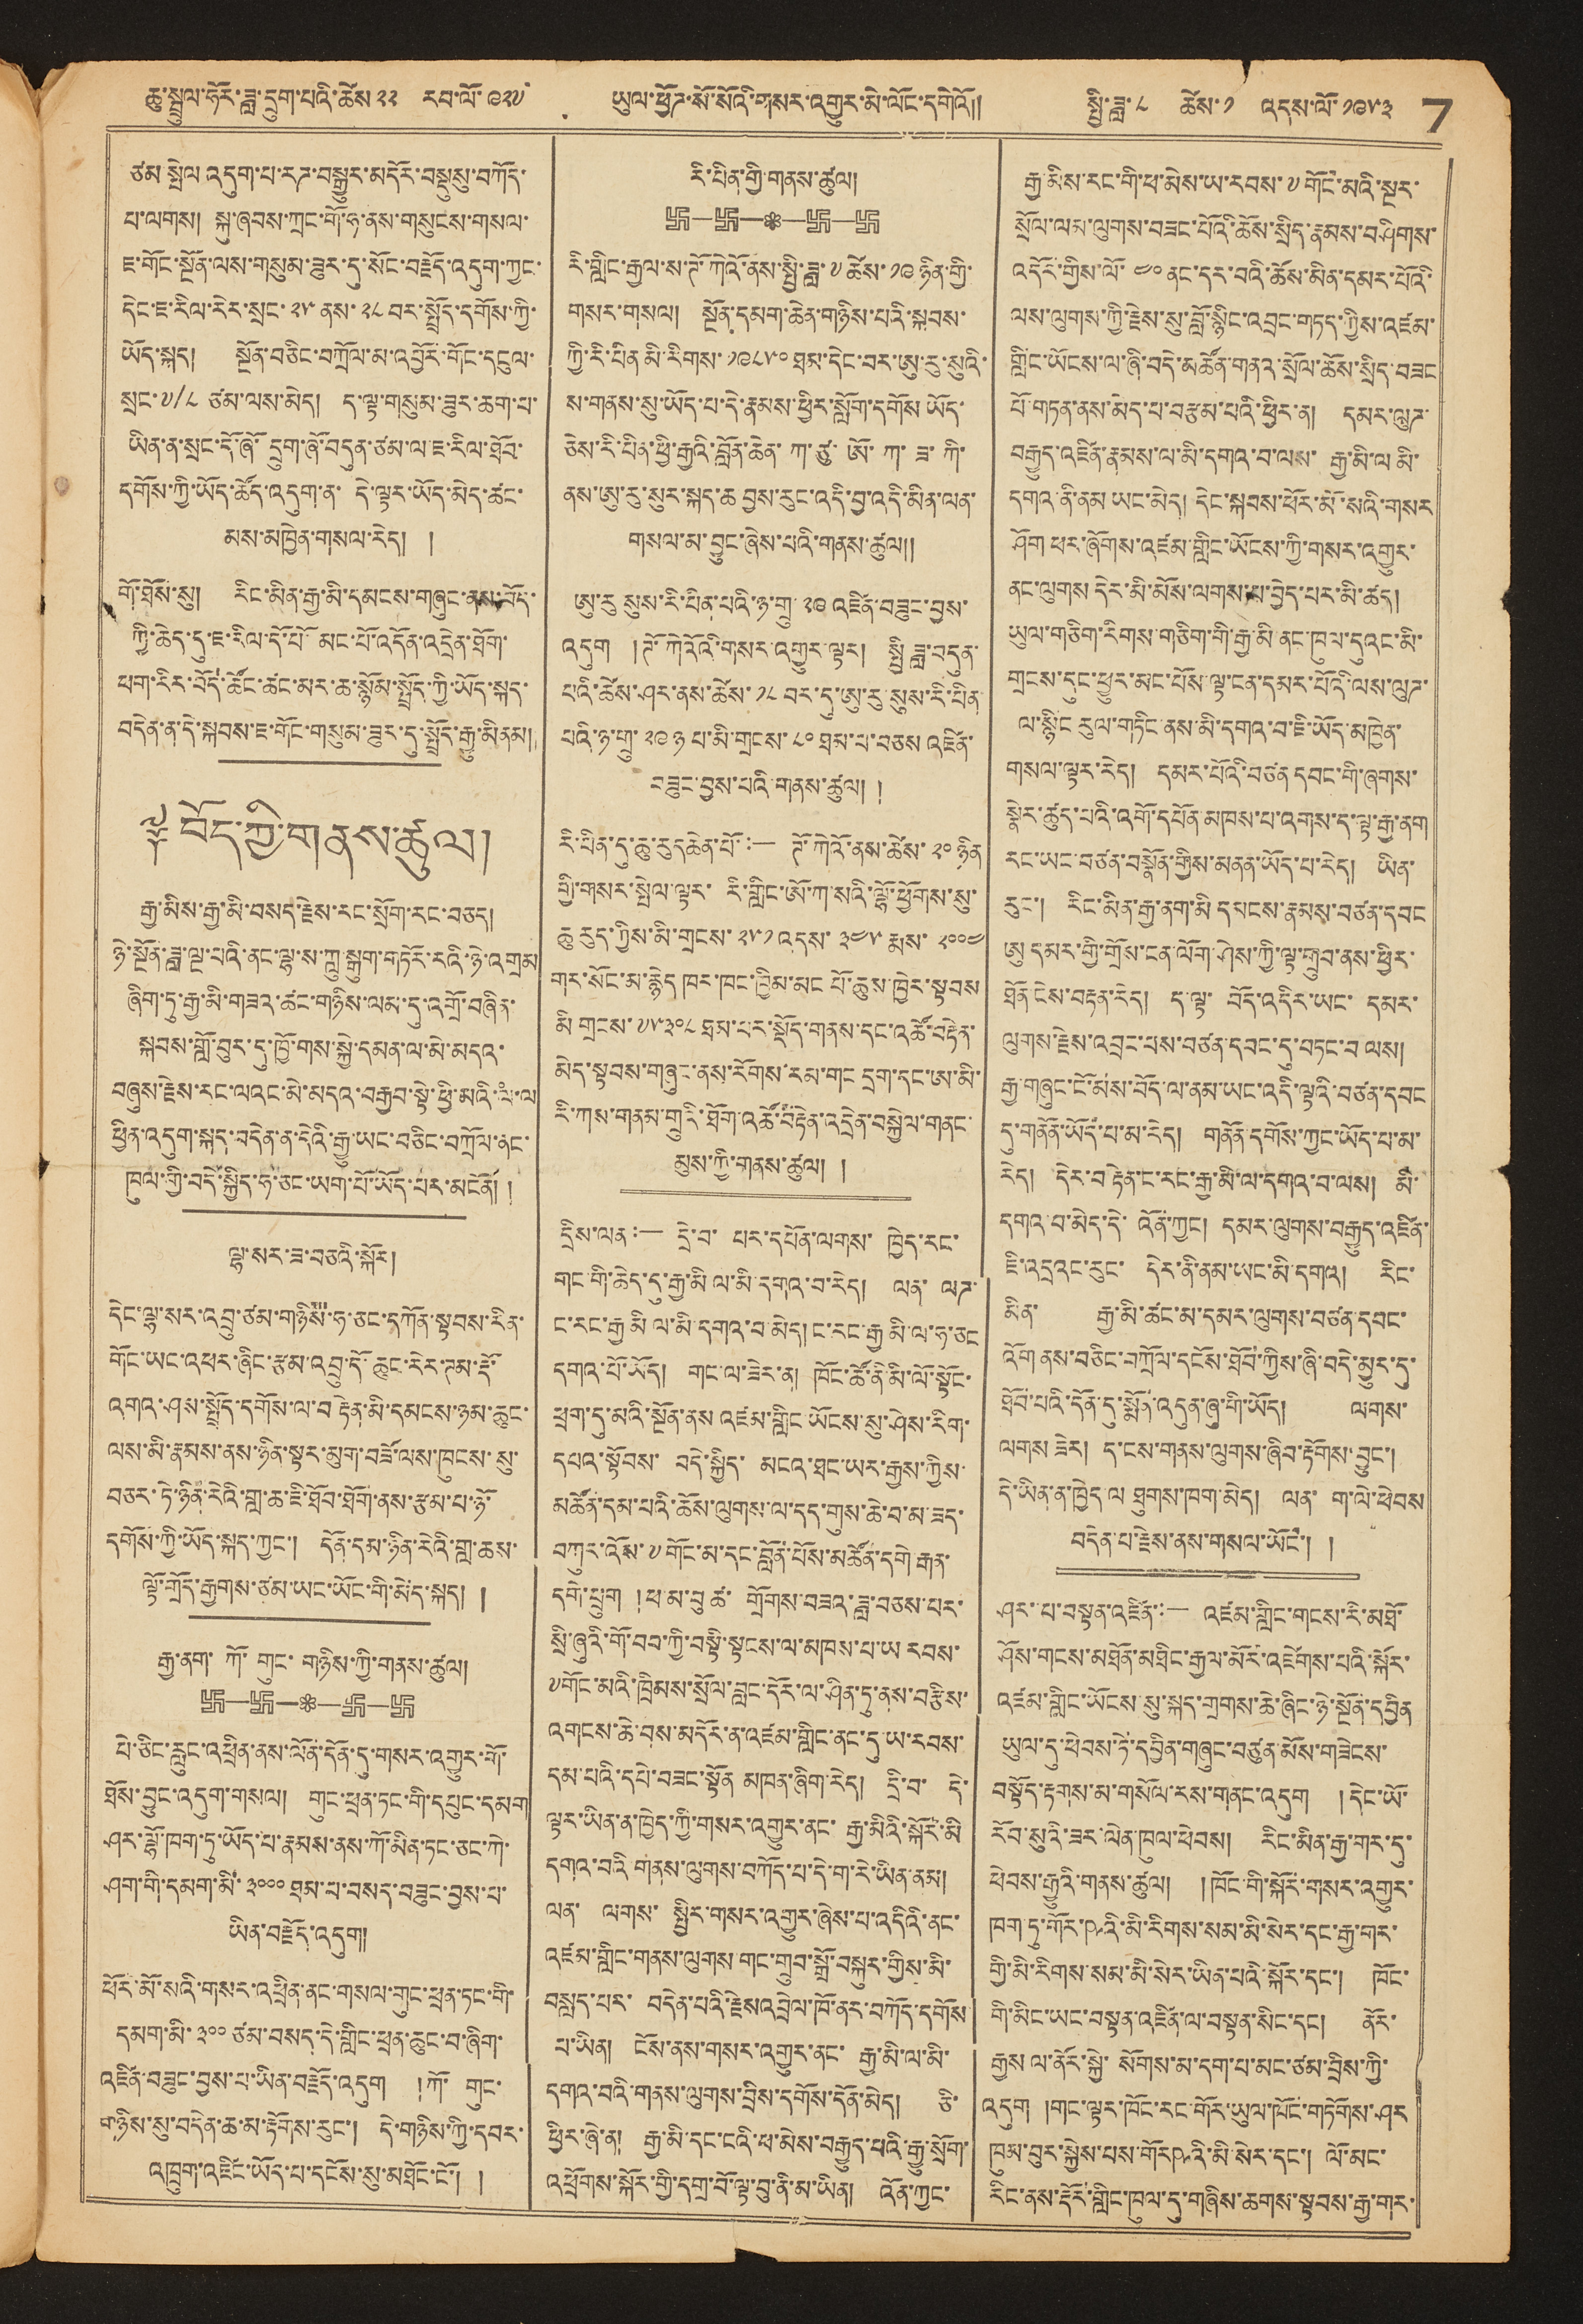ཆུ་སྤྲུལ་ཧོར་ཟླ་དྲུག་པའི་ཚེས་༢༢ རབ་ལོ་༩༢༦ ཡུལ་ཕྱོགས་སོ་སོའི་གསར་འགྱུར་མེ་ལོང་དགེའོ།། སྤྱི་ཟླ་ ༨ ཚེས་ ༡ འདས་ལོ་༡༩༥༣ 7
ཙམ སྤེལ འདུག་པ་རཌ་བསྒྱུར་མདོར་བསྡུསུ་བཀོད་
པ་ལགས། སྐུ་ཞབས་ཀྲང་གོ་ཧ་ནས་གསུངས་གསལ་
ཇ་གོང་སྔོན་ལས་གསུམ་ཟུར་དུ་སོང་བརྗོད་འདུག་ཀྱང་
དེང་ཇ་རིལ་རེར་སྲང་ ༢༥ ནས་ ༢༨ བར་སྤྲོད་དགོས་ཀྱི་
ཡོད་སྐད། སྔོན་བཅིང་བཀྲོལ་མ་འབྱོར་གོང་དངུལ་
སྲང་ ༧/༨ ཙམ་ལས་མེད། ད་ལྟ་གསུམ་ཟུར་ཆག་པ་
ཡིན་ན་སྲང་དོ་ཞོ་དྲུག་ཞོ་བདུན་ཙམ་ལ་ཇ་རིལ་ཐོབ་
དགོས་ཀྱི་ཡོད་ཚོད་འདུག་ན་དེ་ལྟར་ཡོད་མེད་ཚང་
མས་མཁྱེན་གསལ་རེད། །
གོ་ཐོས་སུ། རིང་མིན་རྒྱ་མི་དམངས་གཞུང་ནས་བོད་
ཀྱི་ཆེད་དུ་ཇ་རིལ་དོ་པོ་མང་པོ་འདོན་འདྲེན་ཐོག་
ཕག་རིར་བོད་ཚོང་ཚང་མར་ཆ་སྙོམ་སྤྲོད་ཀྱི་ཡོད་སྐད་
བདེན་ན་དེ་སྐབས་ཇ་གོང་གསུམ་ཟུར་དུ་སྤྲོད་རྒྱུ་མིནམ།།
༈ བོད་ཀྱི་གནས་ཚུལ།
རྒྱ་མིས་རྒྱ་མི་བསད་རྗེས་རང་སྲོག་རང་བཅད་
ཉེ་སྔོན་ཟླ་ལྔ་པའི་ནང་ལྷ་ས་ཀླུ་སྒྲུབ་གཏོར་རའི་ཉེ་འགྲམ
ཞིག་ཏུ་རྒྱ་མི་གཟའ་ཚང་གཉིས་ལམ་དུ་འགྲོ་བཞིན་
སྐབས་གློ་བུར་དུ་ཁྱོ་གས་སྐྱེ་དམན་ལ་མེ་མདའ་
བཞུས་རྗེས་རང་ལའང་མེ་མདའ་བརྒྱབ་སྟེ་ཕྱི་མའི་ལཾ་ལ་
ཕྱིན་འདུག་སྐད་བདེན་ན་དེའི་རྒྱུ་ཡང་བཅིང་བཀྲོལ་ནང་
ཁུལ་གྱི་བདེ་སྐྱིད་ཧ་ཅང་ཡག་པོ་ཡོད་པར་མངོན།།
ལྷ་སར་ཟ་བཅའི་སྐོར།
དེང་ལྷ་སར་འབྲུ་ཙམ་གཉིས་ཧ་ཅང་དཀོན་སྟབས་རིན་
གོང་ཡང་འཕར་ཞིང་རྩམ་འབྲུ་དོ་ཆུང་རེར་ཌམ་རྡོ་
འགའ་ཤས་སྤྲོད་དགོས་ལ་བརྟེན་མི་དམངས་ཉམ་ཆུང་
ལས་མི་རྣམས་ནས་ཉིན་ལྟར་མུག་བཟོ་ལས་ཁུངས་སུ་
བཅར་ཏེ་ཉིན་རེའི་གླ་ཆ་ཇི་ཐོབ་ཐག་ནས་རྩམ་པ་ཉོ་
དགོས་ཀྱི་ཡོད་སྐད་ཀྱང་། དོན་དམ་ཉིན་རེའི་གླ་ཆས་
ལྟོ་གྲོད་རྒྱགས་ཙམ་ཡང་ཡོང་གི་མེད་སྐད།།
རྒྱ་ནག་ཀོ་གུང་གཉིས་ཀྱི་གནས་ཚུལ།
པེ་ཅིང་རླུང་འཕྲིན་ནས་ལོན་དོན་དུ་གསར་འགྱུར་གོ་
ཐོས་བྱུང་འདུག་གསལ། །གུང་ཕྲན་ཏང་གི་དཔུང་དམག
ཤར་ལྷོ་ཁག་ཏུ་ཡོད་པ་རྣམས་ནས་ཀོ་མིན་ཏང་ཅང་ཀེ་
ཤག་གི་དམག་མི་ ༣༠༠༠ ཐམ་པ་བསད་བཅུང་བྱས་པ་
ཡིན་བརྗོད་འདུག།།
ཕོར་མོ་སའི་གསར་འཕྲིན་ནང་གསལ་གུང་ཕྲན་ཏང་གི་
དམག་མི་ ༣༠༠ ཙམ་བསད་དེ་གླིང་ཕྲན་ཆུང་བ་ཞིག་
འཛིན་བཟུང་བྱས་པ་ཡིན་བརྗོད་འདུག །ཀོ་གུང་
གཉིས་སུ་བདེན་ཆ་མ་རྟོགས་རུང་། དེ་གཉིས་ཀྱི་དབར་
འཁྲུག་འཛིན་ཡོད་པ་དངོས་སུ་མཐོང་། །
རི་པིན་གྱི་གནས་ཚུལ།
རི་གླིང་རྒྱལ་ས་ཌོ་ཀེའོ་ནས་སྤྱི་ཟླ་༧ཚེས་༡༩ཉིན་གྱི་
གསར་གསལ། སྔོན་དམག་ཆེན་གཉིས་པའི་སྐབས་
ཀྱི་རི་པིན་མི་རིགས་ ༡༩༨༥༠ ཐམ་དེང་བར་ཨུ་རུ་སུའི་
ས་གནས་སུ་ཡོད་པ་དེ་རྣམས་ཕྱིར་སློག་དགོས་ཡོད་
ཅེས་རི་པིན་ཕྱི་རྒྱའི་བློན་ཆེན་ཀ་ཙུ་ཨོ་ཀ་ཟ་ཀི་
ནས་ཨུ་རུ་སུར་སྐད་ཆ བྱས་རུང་འདི་བྱ་འདི་མིན་ལན་
གསལ་མ་བྱུང་ཞེས་པའི་གནས་ཚུལ།།
ཨུ་རུ སུས་རི་པིན་པའི་ཉ་གྲུ་ ༢༩ འཛིན་བཟུང་བྱས་
འདུག །ཊོ་ཀེའོའི་གསར་འགྱུར་ལྟར། སྤྱི ཟླ་བདུན་
པའི་ཚེས་ཤར་ནས་ཚེས་ ༡༨ བར་དུ་ཨུ་རུ་སུས་རི་པིན་
པའི་ཉ་གྲུ་ ༢༩ ཉ པ་མི་གྲངས་ ༨༠ ཐམ་པ་བཅས་འཛིན་
བཟུང་བྱས་པའི་གནས་ཚུལ།།
རི་པིན་དུ་ཆུ་རུད ཆེན་པོ་:— ཌོ་ཀེའོ་ནས་ཚེས་ ༢༠ ཉིན
གྱི་གསར་སྤེལ་ལྟར་རི་གླིང་ཨོ་ཀ་སའི་ལྷོ་ཕྱོགས་སུ་
ཆུ རུད་ཀྱིས་མི་གྲངས་ ༢༨༡ འདས་ ༣༤༥ རྨས་ ༢༠༠༤
གར་སོང་མ་རྙེད་ཁར་ཁང་ཁྱིམ་མང པོ་ཆུས་ཁྱེར་སྟབས
མི གྲངས་༧༥༣༠༨ ཐམ་པར་སྡོད་གནས་དང་འཚོ་བརྟེན་
མེད་སྟབས་གཞུང་ནས་རོགས་རམ་གང དྲག་དང་ཨ་མི་
རི་ཀས་གནམ་གྲུའི་ཐོག་འཚོ་བརྟེན་འདྲེན་བསྐྱེལ་གནང་
མུས་ཀྱི་གནས་ཚུལ།།
དྲིས་ལན:— དྲི་བ་པར་དཔོན་ལགས་ཁྱེད་རང་
གང་གི་ཆེད་དུ་རྒྱ་མི ལ་མི་དགའ་བ་རེད། ལན་ལཌ་
ང་རང་རྒྱ མི ལ་མི་དགའ་བ་མེད། ང་རང་རྒྱ མི་ལ་ཧ་ཅང
དགའ་པོ་ཡོད། གང་ལ་ཟེར་ན། ཁོང་ཚོ་ནི་མི་ལོ་སྟོང་
ཕྲག་དུ་མའི་སྔོན་ནས འཛམ་གླིང ཡོངས་སུ་ཤེས་རིག་
དཔའ་སྟོབས་བདེ་སྐྱིད་མངའ་ཐང་ཡར་རྒྱས་ཀྱིས་
མཚོན་དམ་པའི་ཆོས་ལུགས་ལ་དད་གུས་ཆེ་བ་མ་ཟད་
བཀུར་འོས་༸གོང་མ་དང་བློན་པོས་མཚོན་དགེ་རྒན་
དགེ་ཕྲུག །ཕ་མ་བུ་ཚ་གྲོགས་བཟའ་ཟླ་བཅས་པར་
སྲི་ཞུའི་གོ་བབ་ཀྱི་བསྟི་སྟངས་ལ་མཁས་པ་ཡ རབས་
༸གོང་མའི་ཁྲིམས་སྲོལ་བླང་དོར་ལ་ཤིན་ཏུ་ནས་བརྩིས་
འགངས་ཆེ་བས་མདོར་ན་འཛམ་གླིང་ནང་དུ་ཡ་རབས་
དམ་པའི་དཔེ་བཟང་སྟོན མཁན་ཞིག་རེད། དྲི་བ་དེ་
ལྟར་ཡིན་ན་ཁྱེད་ཀྱི་གསར་འགྱུར་ནང་རྒྱ་མིའི་སྐོར་མི
དགའ་བའི གནས་ལུགས་བཀོད་པ་དེ་ག་རེ་ཡིན་ནམ།
ལན་ལགས་སྤྱིར་གསར་འགྱུར་ཞེས་པ་འདིའི་ནང་
འཛམ་གླིང་གནས་ལུགས གང་གྲུབ་སྒྲོ་བསྐུར་གྱིས་མི་
བསླད་པར་བདེན་པའི་རྗེས་འབྲེལ་ཁོ་ནར་བཀོད་དགོས
པ་ཡིན། །ངོས་ནས་གསར་འགྱུར་ནང་རྒྱ་མི་ལ་མི་
དགའ་བའི་གནས་ལུགས་བྲིས་དགོས་དོན་མེད། ཅི་
ཕྱིར་ཞེ་ན། རྒྱ་མི་དང་ངའི་ཕ་མེས་བརྒྱུད་པའི་རྒྱུ་སྲོག་
འཕྲོགས་སྐོར་གྱི་དགྲ་བོ་ལྟ་བུ་ནི་མ་ཡིན། འོན་ཀྱང་
རྒྱ་མིས་རང་གི་ཕ་མེས་ཡ་རབས་༸གོང་མའི་སྔར་
སྲོལ་ལམ་ལུགས་བཟང་པོའི་ཆོས་སྲིད་རྣམས་བཤིགས་
འདོར་གྱིས་ལོ་ ༤༠ ནང་དར་བའི་ཆོས་མིན་དམར་པོའི་
ལས་ལུགས་ཀྱི་རྗེས་སུ་བློ་སྙིང་འབྲང་གཏད་ཀྱིས་འཛམ་
གླིང་ཡོངས་ལ་ཞི་བདེ་མཚོན་གནའ་སྲོལ་ཆོས་སྲིད་བཟང
པོ་གཏན་ནས་མེད་པ་བརྩམ་པའི་ཕྱིར་ན། དམར་ལུཌ་
བརྒྱུད་འཛིན་རྣམས་ལ་མི་དགའ་བ་ལས་རྒྱ་མི་ལ མི་
དགའ་ནི་ནམ་ཡང་མེད། དེང་སྐབས་ཕོར་མོའི་གསར་
ཤོག་ཕར་ཞོགས་འཛམ་གླིང་ཡོངས་ཀྱི་གསར་འགྱུར་
ནང་ལུགས དེར་མི་མོས་ལགས་པ་བྱེད་པར་མི་ཚད།
ཡུལ་གཅིག་རིགས་གཅིག་གི་རྒྱ་མི ནང་ཁུལ་དུའང་མི་
གྲངས་དུང་ཕྱུར་མང་པོས་ལྟ་ངན་དམར་པོའི་ལས་ལུཌ་
ལ་སྙིང རུལ་གཏིང་ནས་མི་དགའ་བ་ཇི་ཡོད་མཁྱེན་
གསལ་ལྟར་རེད། དམར་པོའི་བཙན་དབང་གི་ཞགས་
སྣིར་ཚུད་པའི་འགོ་དཔོན་མཁས་པ་འགས་ད་ལྟ་རྒྱ་ནག
རང་ཡང་བཙན་བསྣོན་གྱིས་མནན་ཡོད་པ་རེད། ཡིན་
རུང་། རིང་མིན་རྒྱ་ནག་མི དམངས་རྣམས་བཙན་དབང
ཨུ དམར་གྱོ་གྲོས་ངན་ལོག་ཤེས་ཀྱི་ལྟ་གྲུབ་ནས་ཕྱིར་
ཐོན་ངེས་བརྟན་རེད། དེ་ལྟ་བོད་འདིར་ཡང་དམར་
ལུགས་རྗེས་འབྲང་པས་བཙན་དབང་དུ་བཏང་བ ལས།
རྒྱ་གཞུང་ངོ་མས་བོད་ལ་ནམ་ཡང་འདི་ལྟའི་བཙན་དབང
དུ་གནོན་ཡོད་པ་མ་རེད། གནོན་དགོས་ཀྱང་ཡོད་པ་མ་
རེད། དེར་བརྟེན་ང་རང་རྒྱ་མི་ལ་དགའ་བ་ལས། མི་
དགའ་བ་མེད་དེ་འོན་ཀྱང། དམར་ལུགས་བརྒྱུད་འཛིན་
ཇི་འདྲའང་རུང་དེར་ནི་ནམ་ཡང་མེད་དགའ། རིང་
མིན་རྱ་མི་ཚང་མ་དམར་ལུགས་བཙན་དབང་
འོག ནས་བཅིང་བཀྲོལ་དངོས་ཐོབ་ཀྱིས་ཞི་བདེ་མྱུར་དུ་
ཐོབ་པའི་དོན་དུ་སྨོན་འདུན་ཞུ་གི་ཡོད། ལགས་
ལགས ཟེར། ད་ངས་གནས་ལུགས་ཞིབ་རྟོགས་བྱུང་།
དེ་ཡིན་ན་ཁྱེད ལ ཐུགས་ཁག་མེད། ལན་ག་ལེ་ཕེབས
བདེན་པ་རྗེས་ནས་གསལ་ཡོང་།།
ཤར་པ་བསྟན་འཛིན་:— འཛམ་གླིང་གངསརི་མཐོ་
ཤོས་གངས་མཐོན་མཐིང་རྒྱལ་མོར་འཛེགས་པའི་སྐོར་
འཛམ་གླིང་ཡོངས་སུ་སྐད་གྲགས་ཆེ་ཞིང་ཉེ་སྔོན་དབྱིན
ཡུལ་དུ་ཕེབས་ཏེ་དབྱིན་གཞུང་བཙུན་མོས་གཟེངས་
བསྟོད་རྟགས་མ་གསོལ་རས་གནང་འདུག །དེང་ཡོ་
རོབ་སུའི་ཟར་ལེན་ཁུལ་ཕེབས། རིང་མིན་རྒྱ་གར་དུ་
ཕེབས་རྒྱུའི་གནས་ཚུལ། །ཁོ་གི་སྐོར་གསར་འགྱུར་
ཁག་ཏུ་གོར་ཥའི་མི་རིགས་སམ་མི་སེར་དང་རྒྱ་གར་
གྱི་མི་རིགས་སམ་མི་སེར་ཡིན་པའི་སྐོར་དང་། ཁོང་
གི་མིང་ཡང་བསྟན་འཛིན་ལ་བསྟན་སིང་དང། ནོད་
རྒྱས ལ་ནོར་སྐྱེ་སོགས་མ་དག་པ་མང་ཙམ་བྲིས་ཀྱི་
འདུག །གང་ལྟར་ཁོང་རང་གོར་ཡུལ་ཁོང་གཏོགས་ཤར་
ཁུམ་མུར་སྐྱེས་པས་གོར ཥའི་མི་སེར་དང་། ལོ་མང་
རིང་ནས་རྡོར་གླིང་ཁུལ་དུ་གཞིས་ཆགས་སྟབས་རྒྱ་གར་
